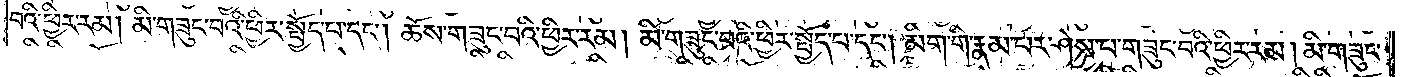བའི་ཕྱིར་རམ། མི་གཟུང་བའི་ཕྱིར་སྤྱོད་པ་དང༌། ཆོས་གཟུང་བའི་ཕྱིར་རམ། མི་གཟུང་བའི་ཕྱིར་སྤྱོད་པ་དང༌། མིག་གི་རྣམ་པར་ཤེས་པ་གཟུང་བའི་ཕྱིར་རམ། མི་གཟུང་
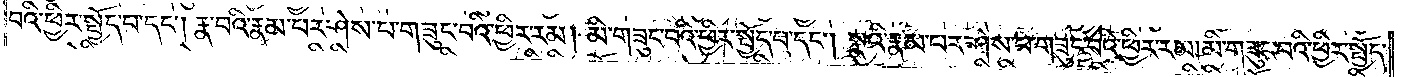བའི་ཕྱིར་སྤྱོད་པ་དང༌། རྣ་བའི་རྣམ་པར་ཤེས་པ་གཟུང་བའི་ཕྱིར་རམ། མི་གཟུང་བའི་ཕྱིར་སྤྱོད་པ་དང༌། སྣའི་རྣམ་པར་ཤེས་པ་གཟུང་བའི་ཕྱིར་རམ། མི་གཟུང་བའི་ཕྱིར་སྤྱོད་
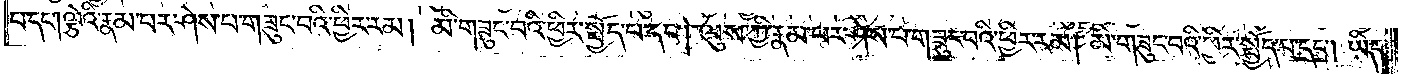པ་དང༌། ལྕེའི་རྣམ་པར་ཤེས་པ་གཟུང་བའི་ཕྱིར་རམ། མི་གཟུང་བའི་ཕྱིར་སྤྱོད་པ་དང༌། ལུས་ཀྱི་རྣམ་པར་ཤེས་པ་གཟུང་བའི་ཕྱིར་རམ། མི་གཟུང་བའི་ཕྱིར་སྤྱོད་པ་དང༌། ཡིད་
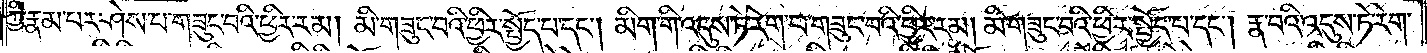ཀྱི་རྣམ་པར་ཤེས་པ་གཟུང་བའི་ཕྱིར་རམ། མི་གཟུང་བའི་ཕྱིར་སྤྱོད་པ་དང༌། མིག་གི་འདུས་ཏེ་རེག་པ་གཟུང་བའི་ཕྱིར་རམ། མི་གཟུང་བའི་ཕྱིར་སྤྱོད་པ་དང༌། རྣ་བའི་འདུས་ཏེ་རེག་
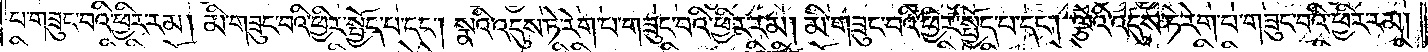པ་གཟུང་བའི་ཕྱིར་རམ། མི་གཟུང་བའི་ཕྱིར་སྤྱོད་པ་དང༌། སྣའི་འདུས་ཏེ་རེག་པ་གཟུང་བའི་ཕྱིར་རམ། མི་གཟུང་བའི་ཕྱིར་སྤྱོད་པ་དང༌། ལྕེའི་འདུས་ཏེ་རེག་པ་གཟུང་བའི་ཕྱིར་རམ།
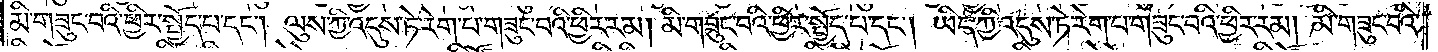མི་གཟུང་བའི་ཕྱིར་སྤྱོད་པ་དང༌། ལུས་ཀྱི་འདུས་ཏེ་རེག་པ་གཟུང་བའི་ཕྱིར་རམ། མི་གཟུང་བའི་ཕྱིར་སྤྱོད་པ་དང༌། ཡིད་ཀྱི་འདུས་ཏེ་རེག་པ་གཟུང་བའི་ཕྱིར་རམ། མི་གཟུང་བའི་
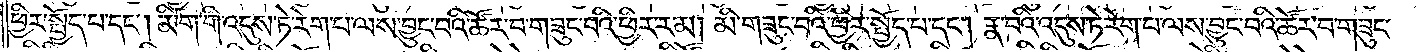ཕྱིར་སྤྱོད་པ་དང༌། མིག་གི་འདུས་ཏེ་རེག་པ་ལས་བྱུང་བའི་ཚོར་བ་གཟུང་བའི་ཕྱིར་རམ། མི་གཟུང་བའི་ཕྱིར་སྤྱོད་པ་དང༌། རྣ་བའི་འདུས་ཏེ་རེག་པ་ལས་བྱུང་བའི་ཚོར་བ་གཟུང་
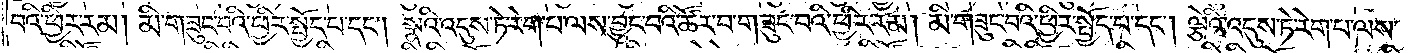བའི་ཕྱིར་རམ། མི་གཟུང་བའི་ཕྱིར་སྤྱོད་པ་དང༌། སྣའི་འདུས་ཏེ་རེག་པ་ལས་བྱུང་བའི་ཚོར་བ་གཟུང་བའི་ཕྱིར་རམ། མི་གཟུང་བའི་ཕྱིར་སྤྱོད་པ་དང༌། ལྕེའི་འདུས་ཏེ་རེག་པ་ལས་
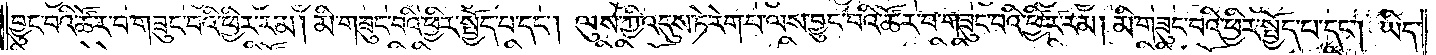བྱུང་བའི་ཚོར་བ་གཟུང་བའི་ཕྱིར་རམ། མི་གཟུང་བའི་ཕྱིར་སྤྱོད་པ་དང༌། ལུས་ཀྱི་འདུས་ཏེ་རེག་པ་ལས་བྱུང་བའི་ཚོར་བ་གཟུང་བའི་ཕྱིར་རམ། མི་གཟུང་བའི་ཕྱིར་སྤྱོད་པ་དང༌། ཡིད་
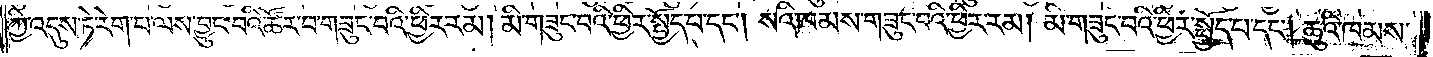ཀྱི་འདུས་ཏེ་རེག་པ་ལས་བྱུང་བའི་ཚོར་བ་གཟུང་བའི་ཕྱིར་རམ། མི་གཟུང་བའི་ཕྱིར་སྤྱོད་པ་དང༌། སའི་ཁམས་གཟུང་བའི་ཕྱིར་རམ། མི་གཟུང་བའི་ཕྱིར་སྤྱོད་པ་དང༌། ཆུའི་ཁམས་
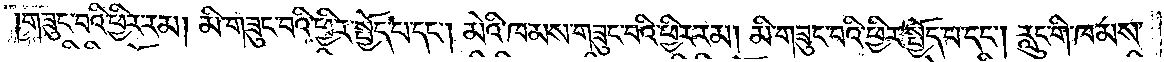གཟུང་བའི་ཕྱིར་རམ། མི་གཟུང་བའི་ཕྱིར་སྤྱོད་པ་དང༌། མེའི་ཁམས་གཟུང་བའི་ཕྱིར་རམ། མི་གཟུང་བའི་ཕྱིར་སྤྱོད་པ་དང༌། རླུང་གི་ཁམས་
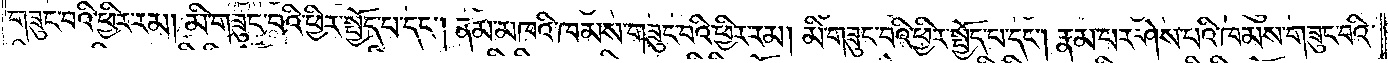གཟུང་བའི་ཕྱིར་རམ། མི་གཟུང་བའི་ཕྱིར་སྤྱོད་པ་དང༌། ནམ་མཁའི་ཁམས་གཟུང་བའི་ཕྱིར་རམ། མི་གཟུང་བའི་ཕྱིར་སྤྱོད་པ་དང༌། རྣམ་པར་ཤེས་པའི་ཁམས་གཟུང་བའི་
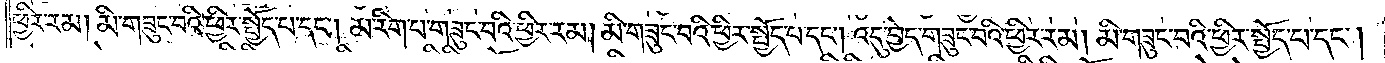ཕྱིར་རམ། མི་གཟུང་བའི་ཕྱིར་སྤྱོད་པ་དང༌། མ་རིག་པ་གཟུང་བའི་ཕྱིར་རམ། མི་གཟུང་བའི་ཕྱིར་སྤྱོད་པ་དང༌། འདུ་བྱེད་གཟུང་བའི་ཕྱིར་རམ། མི་གཟུང་བའི་ཕྱིར་སྤྱོད་པ་དང༌།
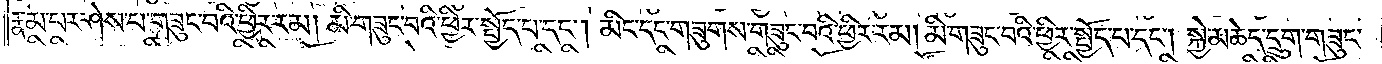རྣམ་པར་ཤེས་པ་གཟུང་བའི་ཕྱིར་རམ། མི་གཟུང་བའི་ཕྱིར་སྤྱོད་པ་དང༌། མིང་དང་གཟུགས་གཟུང་བའི་ཕྱིར་རམ། མི་གཟུང་བའི་ཕྱིར་སྤྱོད་པ་དང༌། སྐྱེ་མཆེད་དྲུག་གཟུང་
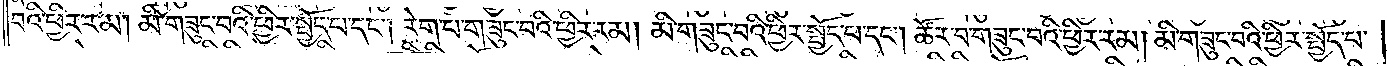བའི་ཕྱིར་རམ། མི་གཟུང་བའི་ཕྱིར་སྤྱོད་པ་དང༌། རེག་པ་གཟུང་བའི་ཕྱིར་རམ། མི་གཟུང་བའི་ཕྱིར་སྤྱོད་པ་དང༌། ཚོར་བ་གཟུང་བའི་ཕྱིར་རམ། མི་གཟུང་བའི་ཕྱིར་སྤྱོད་པ་
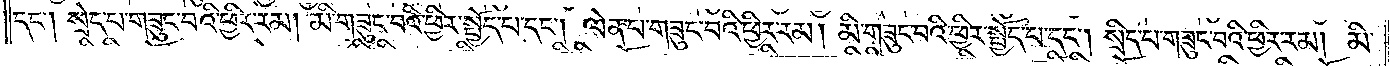དང༌། སྲེད་པ་གཟུང་བའི་ཕྱིར་རམ། མི་གཟུང་བའི་ཕྱིར་སྤྱོད་པ་དང༌། ལེན་པ་གཟུང་བའི་ཕྱིར་རམ། མི་གཟུང་བའི་ཕྱིར་སྤྱོད་པ་དང༌། སྲིད་པ་གཟུང་བའི་ཕྱིར་རམ། མི་
